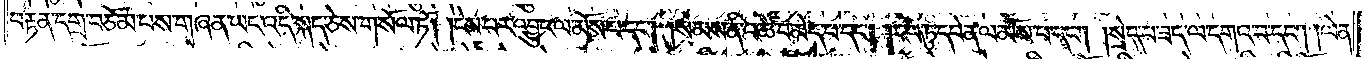བརྟན་དགྲ་བཅོམ་པས་གཞན་ཡང་འདི་སྐད་ཅེས་གསོལ་ཏོ། །ངེས་པར་འབྱུང་ལ་མོས་པ་དང༌། །སེམས་ནི་འཚེ་བ་མེད་པ་དང༌། །རབ་ཏུ་དབེན་ལ་མོས་པ་དང༌། །སྲེད་པ་ཟད་ལ་དགའ་བ་དང༌། །ལེན་
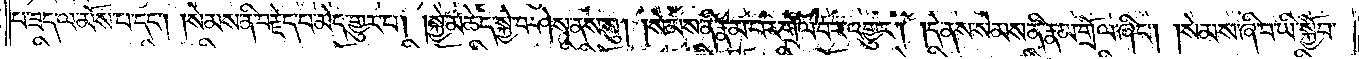པ་ཟད་ལ་མོས་པ་དང༌། །སེམས་ནི་བརྗེད་པ་མེད་གྱུར་པ། །སྐྱེ་མཆེད་སྐྱེ་བ་ཤེས་ནས་སུ། །སེམས་ནི་རྣམ་པར་གྲོལ་བར་འགྱུར། །དེ་ནས་སེམས་ནི་རྣམ་གྲོལ་ཞིང༌། །སེམས་ཞི་བ་ཡི་སྐྱོབ་
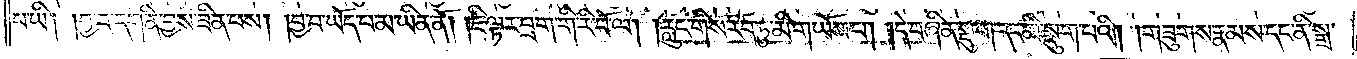པ་ཡི། །བྱ་བ་དག་ནི་བྱས་ཟིན་པས། །བྱ་བ་ཡོད་པ་མ་ཡིན་ནོ། །ཇི་ལྟར་བྲག་གི་རི་བོ་ལ། །རླུང་གིས་རབ་ཏུ་མི་གཡོས་པ། །དེ་བཞིན་སྡུག་དང་མི་སྡུག་པའི། །གཟུགས་རྣམས་དང་ནི་སྒྲ་
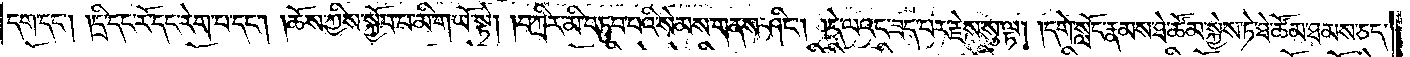དག་དང༌། །དྲི་དང་རོ་དང་རེག་པ་དང༌། །ཆོས་ཀྱིས་སྐྱོབ་པ་མི་གཡོ་སྟེ། །བཀྲིར་མི་བཏུབ་པའི་སེམས་གནས་ཤིང༌། །དེ་ལའང་ཟད་པར་རྗེས་སུ་ལྟ། །དགེ་སློང་རྣམས་ཐེ་ཚོམ་སྐྱེས་ཏེ་ཐེ་ཚོམ་ཐམས་ཅད་
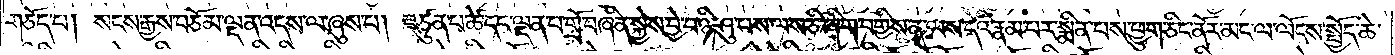གཅོད་པ། སངས་རྒྱས་བཅོམ་ལྡན་འདས་ལ་ཞུས་པ། བཙུན་པ་ཚེ་དང་ལྡན་པ་གྲོ་བཞིན་སྐྱེས་བྱེ་བ་ཉི་ཤུ་པས་ལས་ཅི་ཞིག་བགྱིས་ན་ལས་དེའི་རྣམ་པར་སྨིན་པས་ཕྱུག་ཅིང་ནོར་མང་ལ་ལོངས་སྤྱོད་ཆེ་
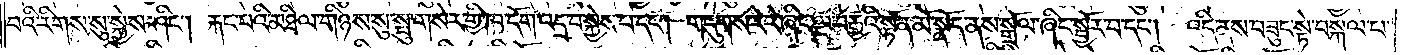བའི་རིགས་སུ་སྐྱེས་ཤིང༌། རྐང་པའི་མཐིལ་གཉིས་སུ་སྤུ་གསེར་གྱི་ཁ་དོག་འདྲ་བ་སྐྱེས་པ་དང༌། གདུགས་རེ་རེ་ཞིང་ལྔ་བརྒྱའི་སྟོན་མོ་སྣོད་ནས་སྒྲོལ་ཞིང་སྦྱོར་བ་དང༌། འདི་ནས་བཟུང་སྟེ་བསྐལ་པ་
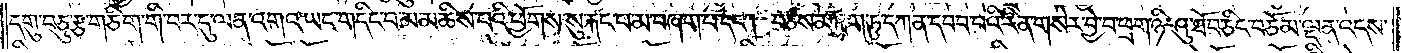དགུ་བཅུ་རྩ་གཅིག་གི་བར་དུ་ལན་འགའ་ཡང་གདིང་བ་མ་མཆིས་པའི་ཕྱོགས་སུ་རྐང་པ་མ་བཞག་པ་དང༌། བཙས་མ་ཐག་ཏུ་དཀན་དབབ་པའི་རིན་གསེར་བྱེ་བ་ཕྲག་ཉི་ཤུ་ཐོབ་ཅིང་བཅོམ་ལྡན་འདས་
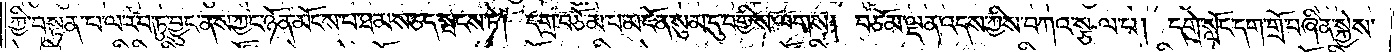ཀྱི་བསྟན་པ་ལ་རབ་ཏུ་བྱུང་ནས་ཀྱང་ཉོན་མོངས་པ་ཐམས་ཅད་སྤངས་ཏེ། དགྲ་བཅོམ་པ་མངོན་སུམ་དུ་བགྱིས་ལགས། བཅོམ་ལྡན་འདས་ཀྱིས་བཀའ་སྩལ་པ། དགེ་སློང་དག་གྲོ་བཞིན་སྐྱེས་
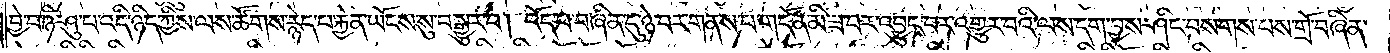བྱེ་བ་ཉི་ཤུ་པ་འདི་ཉིད་ཀྱིས་ལས་ཚོགས་རྙེད་པ་རྐྱེན་ཡོངས་སུ་བསྒྱུར་བ། འོད་པ་བཞིན་དུ་ཉེ་བར་གནས་པ་གདོན་མི་ཟ་བར་འབྱུང་བར་འགྱུར་བའི་ལས་དག་བྱས་ཤིང་བསགས་པས་གྲོ་བཞིན་
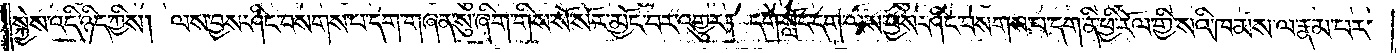སྐྱེས་འདི་ཉིད་ཀྱིས། ལས་བྱས་ཤིང་བསགས་པ་དག་གཞན་སུ་ཞིག་གིས་སོ་སོར་མྱོང་བར་འགྱུར། དགེ་སློང་དག་ལས་བྱས་ཤིང་བསགས་པ་དག་ནི་ཕྱི་རོལ་གྱི་སའི་ཁམས་ལ་རྣམ་པར་
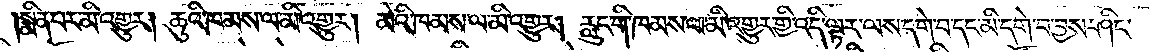སྨིན་པར་མི་འགྱུར། ཆུའི་ཁམས་ལ་མི་འགྱུར། མེའི་ཁམས་ལ་མི་འགྱུར། རླུང་གི་ཁམས་ལ་མི་འགྱུར་གྱི་འདི་ལྟར་ལས་དགེ་བ་དང་མི་དགེ་བ་བྱས་ཤིང་
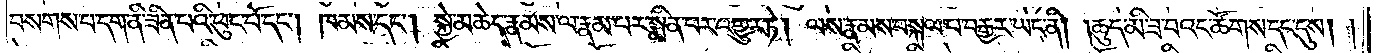བསགས་པ་དག་ནི་ཟིན་པའི་ཕུང་པོ་དང༌། ཁམས་དང༌། སྐྱེ་མཆེད་རྣམས་ལ་རྣམ་པར་སྨིན་པར་འགྱུར་ཏེ། ལས་རྣམས་བསྐལ་པ་བརྒྱར་ཡང་ནི། །ཆུད་མི་ཟ་བའང་ཚོགས་དང་དུས། །
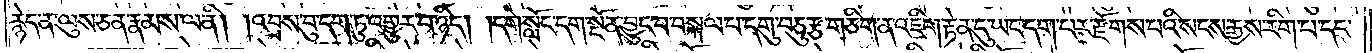རྙེད་ན་ལུས་ཅན་རྣམས་ལ་ནི། །འབྲས་བུ་དག་ཏུ་འགྱུར་བ་ཉིད། །དགེ་སློང་དག་སྔོན་བྱུང་བ་བསྐལ་པ་དགུ་བཅུ་རྩ་གཅིག་ན་འཇིག་རྟེན་དུ་ཡང་དག་པར་རྫོགས་པའི་སངས་རྒྱས་རིག་པ་དང་
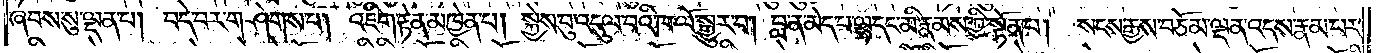ཞབས་སུ་ལྡན་པ། བདེ་བར་གཤེགས་པ། འཇིག་རྟེན་མཁྱེན་པ། སྐྱེས་བུ་འདུལ་བའི་ཁ་ལོ་སྒྱུར་བ། བླ་ན་མེད་པ་ལྷ་དང་མི་རྣམས་ཀྱི་སྟོན་པ། སངས་རྒྱས་བཅོམ་ལྡན་འདས་རྣམ་པར་
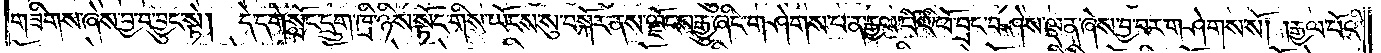གཟིགས་ཞེས་བྱ་བ་བྱུང་སྟེ། དེ་དགེ་སློང་དྲུག་ཁྲི་ཉིས་སྟོང་གིས་ཡོངས་སུ་བསྐོར་ནས་ལྗོངས་རྒྱུ་ཞིང་གཤེགས་པ་ན་རྒྱལ་པོའི་ཕོ་བྲང་བཤེས་ལྡན་ཞེས་བྱ་བར་གཤེགས་སོ། །རྒྱལ་པོའི་
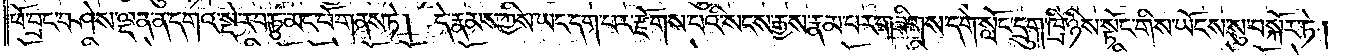ཕོ་བྲང་བཤེས་ལྡན་ན་དགའ་སྡེ་རབ་ཏུ་མང་པོ་གནས་ཏེ། དེ་རྣམས་ཀྱིས་ཡང་དག་པར་རྫོགས་པའི་སངས་རྒྱས་རྣམ་པར་གཟིགས་དགེ་སློང་དྲུག་ཁྲི་ཉིས་སྟོང་གིས་ཡོངས་སུ་བསྐོར་ཏེ།
